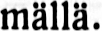mällä.
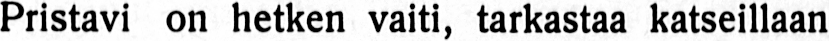Pristavi on hetken vaiti, tarkastaa katseillaan
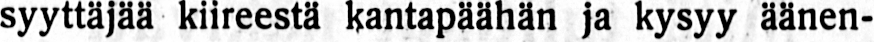syyttäjää kiireestä kantapäähän ja kysyy äänen-
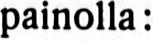painolla:
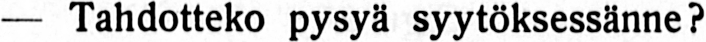— Tahdotteko pysyä syytöksessänne?
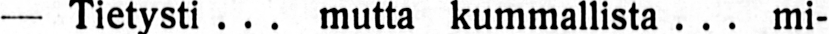— Tietysti . . . mutta kummallista . . . mi-
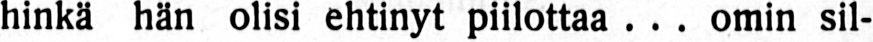hinkä hän olisi ehtinyt piilottaa . . . omin sil-
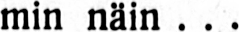min näin . . .
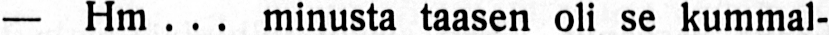— Hm . . . minusta taasen oli se kummal-
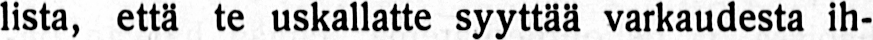lista, että te uskallatte syyttää varkaudesta ih-
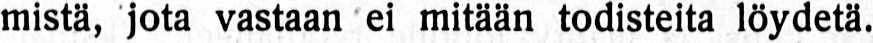mistä, jota vastaan ei mitään todisteita löydetä.
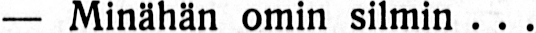— Minähän omin silmin . . .
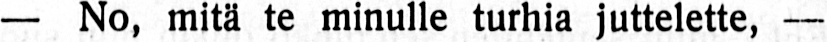— No, mitä te minulle turhia juttelette, —
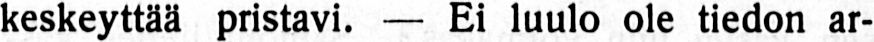keskeyttää pristavi. — Ei luulo ole tiedon ar-
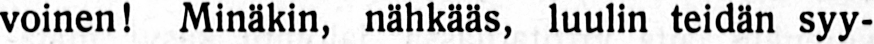voinen! Minäkin, nähkääs, luulin teidän syy-
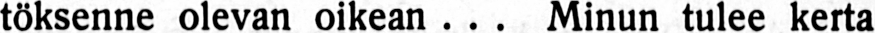töksenne olevan oikean . . . Minun tulee kerta
